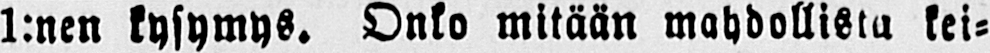1:nen kysymys. Onko mitään mahdollista kei-
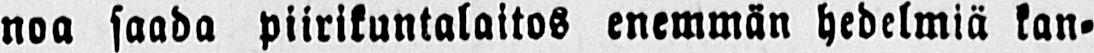noa saada piirikuntalaitos enemmän hedelmiä kan-
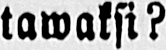tawaksi?
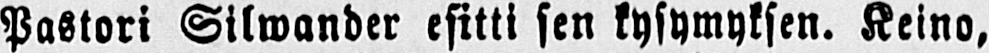Pastori Silwander esitti sen kysymyksen. Keino,
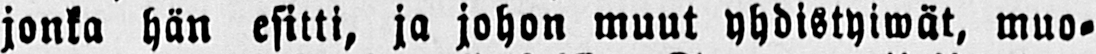jonka hän esitti, ja johon muut yhdistyiwät, muo-
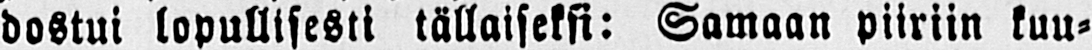dostui lopullisesti tällaiseksi: Samaan piiriin kuu-
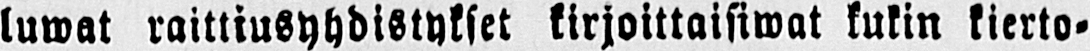luwat raittiusyhdistykset kirjoittaisiwat kukin kierto-
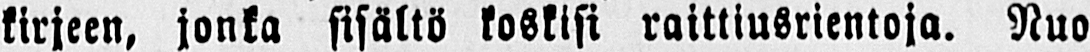kirjeen, jonka sisältö koskisi raittiusrientoja. Nuo
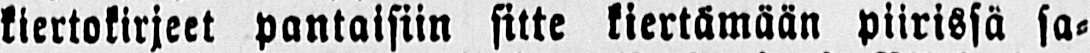kiertokirjeet pantaisiin sitte kiertämään piirissä sa-
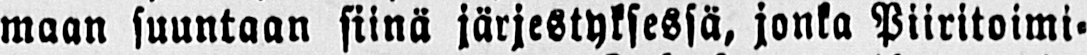maan suuntaan siinä järjestyksessä, jonka Piiritoimi-
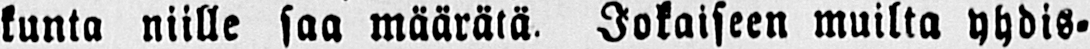kunta niille saa määrätä. Jokaiseen muilta yhdis-
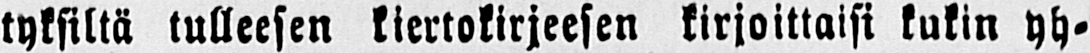tyksiltä tulleesen kiertokirjeesen kirjoittaisi kukin yh-
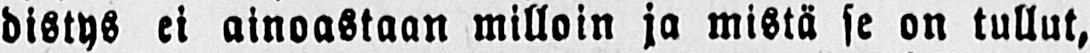distys ei ainoastaan milloin ja mistä se on tullut,
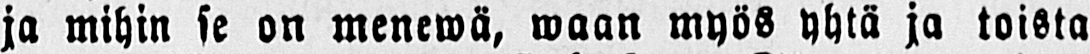ja mihin se on menewä, waan myös yhtä ja toista
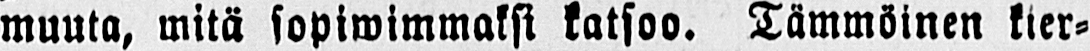muuta, mitä sopiwimmaksi katsoo. Tämmöinen kier-
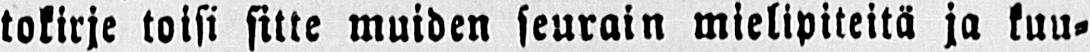tokirje toisi sitte muiden seurain mielipiteitä ja kuu-
